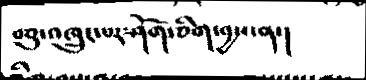བཅུ་འཁྲུང་པར་ཤོག་ཅིག་བྱས་ན་།
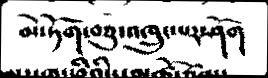མེ་ཏོག་བཅུ་འཁྲུང་པར་ཤོག
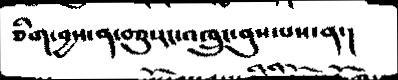ཅིག་བྱས་ན་བཅུ་རང་འཁྲུང་བུས་པས་ན་།
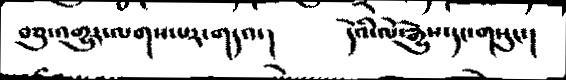བཅུ་འགྱུར་ལགས་པར་གདའ་།   དེའི་ལོ་རྒྱུས་དང་གསུང་།
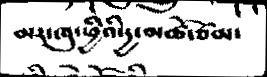མར་ཁུ་ཕྱིའི་མཚོ་ཙམ་
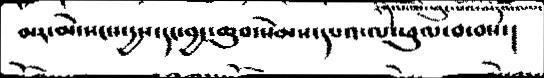མར་མེ་སངས་རྱས་དང་བྱང་ཆུབ་སེམས་དཔའ་ལ་ཕུལ་བ་བས་།
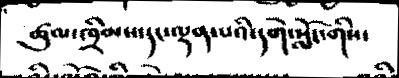ཚུལ་ཁྲིམས་དང་ལྡན་པའི་དགེ་སློང་གིས་
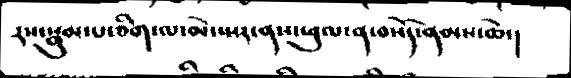རས་སྣུས་པ་ཅིག་ལ་མེ་སྤར་ནས་ཕུལ་ན་བསོད་ནམས་ཆེ་།
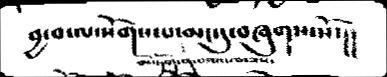བྱ་བ་ལ་སོགས་པ་མང་དུ་བཞུགས་སོ་།།
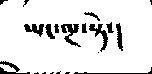ཡང་ལྔ་སྟེ་།
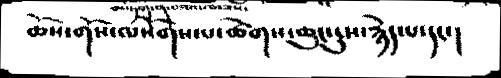ཆོས་གོས་ལསོགས་པ་ཚེགས་ཆུང་ངུས་རྙེད་པ་དང་།
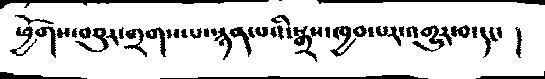ཕྱོགས་བཅུར་གྲགས་པ་སྙན་པའི་སྒྲས་ཁྱབ་པར་འགྱུར་བ་དང་།
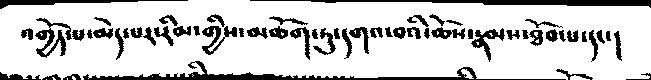འགྱོད་པ་མེད་པར་རིམ་གྱིས་མཆོག་ཏུ་དགའ་བའི་ཆོས་རྣམས་ཐོབ་པ་དང་།
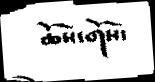ཆོས་གོས་
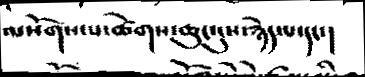ལསོགས་པ་ཚེགས་ཆུང་ངུས་རྙེད་པ་དང་།
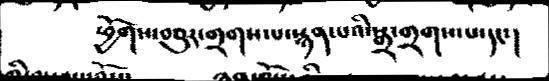ཕྱོགས་བཅུར་གྲགས་པ་སྙན་པའི་སྒྲ་གྲགས་པ་དང་།
